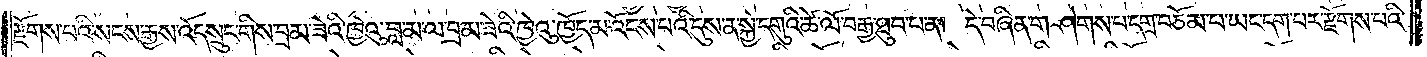རྫོགས་པའི་སངས་རྒྱས་འོད་སྲུང་གིས་བྲམ་ཟེའི་ཁྱེའུ་བླ་མ་ལ་བྲམ་ཟེའི་ཁྱེའུ་ཁྱོད་མ་འོངས་པའི་དུས་ན་སྐྱེ་དགུའི་ཚེ་ལོ་བརྒྱ་ཐུབ་པ་ན། དེ་བཞིན་གཤེགས་པ་དགྲ་བཅོམ་པ་ཡང་དག་པར་རྫོགས་པའི་
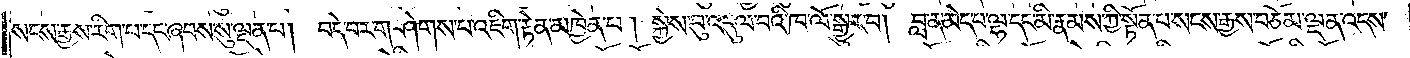སངས་རྒྱས་རིག་པ་དང་ཞབས་སུ་ལྡན་པ། བདེ་བར་གཤེགས་པ་འཇིག་རྟེན་མཁྱེན་པ། སྐྱེས་བུ་འདུལ་བའི་ཁ་ལོ་སྒྱུར་བ། བླ་ན་མེད་པ་ལྷ་དང་མི་རྣམས་ཀྱི་སྟོན་པ་སངས་རྒྱས་བཅོམ་ལྡན་འདས་
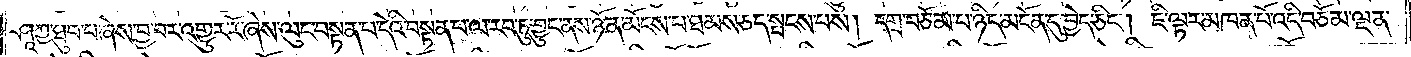ཤཱཀྱ་ཐུབ་པ་ཞེས་བྱ་བར་འགྱུར་རོ་ཞེས་ལུང་བསྟན་པ་དེའི་བསྟན་པ་ལ་རབ་ཏུ་བྱུང་ནས་ཉོན་མོངས་པ་ཐམས་ཅད་སྤངས་པས། དགྲ་བཅོམ་པ་ཉིད་མངོན་དུ་བྱེད་ཅིང༌། ཇི་ལྟར་མཁན་པོ་འདི་བཅོམ་ལྡན་
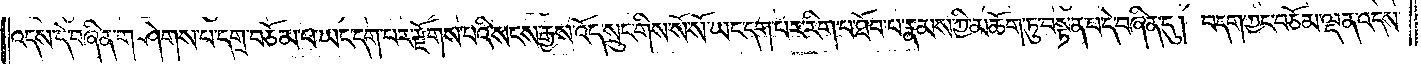འདས་དེ་བཞིན་གཤེགས་པ་དགྲ་བཅོམ་པ་ཡང་དག་པར་རྫོགས་པའི་སངས་རྒྱས་འོད་སྲུང་གིས་སོ་སོ་ཡང་དག་པར་རིག་པ་ཐོབ་པ་རྣམས་ཀྱི་མཆོག་ཏུ་བསྟན་པ་དེ་བཞིན་དུ། བདག་ཀྱང་བཅོམ་ལྡན་འདས་
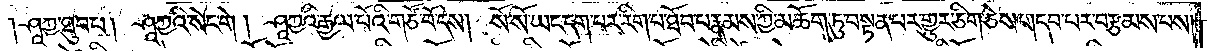།ཤཱཀྱ་ཐུབ་པ། ཤཱཀྱའི་སེང་གེ། ཤཱཀྱའི་རྒྱལ་པོའི་གཙོ་བོ་དེས། སོ་སོ་ཡང་དག་པར་རིག་པ་ཐོབ་པ་རྣམས་ཀྱི་མཆོག་ཏུ་བསྟན་པར་གྱུར་ཅིག་ཅེས་གདབ་པར་བརྩམས་པས།
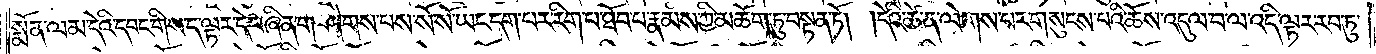སྨོན་ལམ་དེའི་དབང་གིས་ད་ལྟར་དེ་བཞིན་གཤེགས་པས་སོ་སོ་ཡང་དག་པར་རིག་པ་ཐོབ་པ་རྣམས་ཀྱི་མཆོག་ཏུ་བསྟན་ཏོ། །དེའི་ཚེ་ན་ལེགས་པར་གསུངས་པའི་ཆོས་འདུལ་བ་ལ་འདི་ལྟར་རབ་ཏུ་
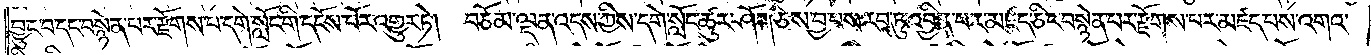བྱུང་བ་དང་བསྙེན་པར་རྫོགས་པ་དགེ་སློང་གི་དངོས་པོར་འགྱུར་ཏེ། བཅོམ་ལྡན་འདས་ཀྱིས་དགེ་སློང་ཚུར་ཤོག་ཅེས་བྱ་བས་རབ་ཏུ་འབྱིན་པར་མཛད་ཅིང་བསྙེན་པར་རྫོགས་པར་མཛད་པས་འགའ་
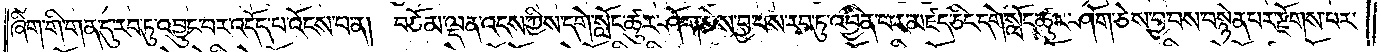ཞིག་གི་གན་དུ་རབ་ཏུ་འབྱུང་བར་འདོད་པ་འོངས་པ་ན། བཅོམ་ལྡན་འདས་ཀྱིས་དགེ་སློང་ཚུར་ཤོག་ཅེས་བྱ་བས་རབ་ཏུ་འབྱིན་པར་མཛད་ཅིང་དགེ་སློང་ཚུར་ཤོག་ཅེས་བྱ་བས་བསྙེན་པར་རྫོགས་པར་
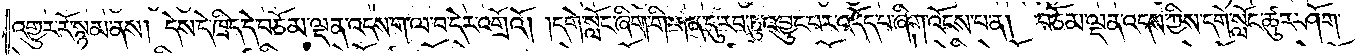འགྱུར་རོ་སྙམ་ནས། དེས་དེ་ཁྲིད་དེ་བཅོམ་ལྡན་འདས་ག་ལ་བ་དེར་འགྲོའོ། །དགེ་སློང་ཞིག་གི་གན་དུ་རབ་ཏུ་འབྱུང་བར་འདོད་པ་ཞིག་འོངས་པ་ན། བཅོམ་ལྡན་འདས་ཀྱིས་དགེ་སློང་ཚུར་ཤོག་
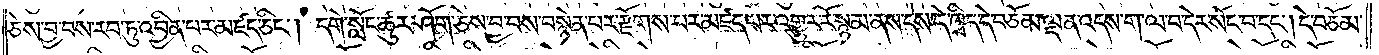ཅེས་བྱ་བས་རབ་ཏུ་འབྱིན་པར་མཛད་ཅིང༌། དགེ་སློང་ཚུར་ཤོག་ཅེས་བྱ་བས་བསྙེན་པར་རྫོགས་པར་མཛད་པར་འགྱུར་རོ་སྙམ་ནས་དེས་དེ་ཁྲིད་དེ་བཅོམ་ལྡན་འདས་ག་ལ་བ་དེར་སོང་བ་དང༌། དེ་བཅོམ་
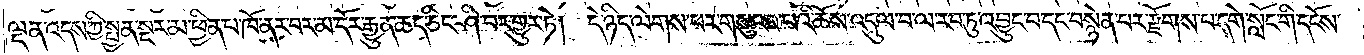ལྡན་འདས་ཀྱི་སྤྱན་སྔར་མ་ཕྱིན་པ་ཁོ་ནར་བར་མ་དོར་རྒྱུན་ཆད་ཅིང་ཤི་བར་གྱུར་ཏེ། དེ་ཉིད་ལེགས་པར་གསུངས་པའི་ཆོས་འདུལ་པ་ལ་རབ་ཏུ་འབྱུང་བ་དང་བསྙེན་པར་རྫོགས་པ་དགེ་སློང་གི་དངོས་
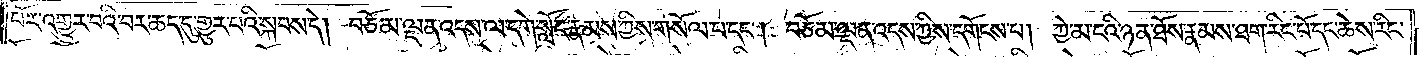པོར་འགྱུར་བའི་བར་ཆད་དུ་གྱུར་པའི་སྐབས་དེ། བཅོམ་ལྡན་འདས་ལ་དགེ་སློང་རྣམས་ཀྱིས་གསོལ་པ་དང༌། བཅོམ་ལྡན་འདས་ཀྱིས་དགོངས་པ། ཀྱེ་མ་ངའི་ཉན་ཐོས་རྣམས་ཐག་རིང་པོ་དང་ཆེས་རིང་
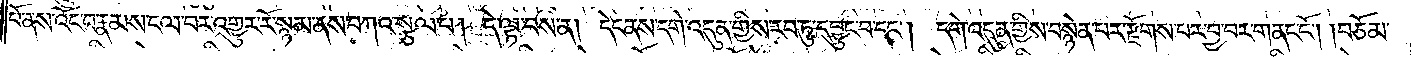པོ་ནས་འོང་བ་རྣམས་ངལ་བར་འགྱུར་རོ་སྙམ་ནས་བཀའ་སྩལ་པ། དེ་ལྟ་བས་ན། དེང་ནས་དགེ་འདུན་གྱིས་རབ་ཏུ་དབྱུང་བ་དང༌། དགེ་འདུན་གྱིས་བསྙེན་པར་རྫོགས་པར་བྱ་བར་གནང་ངོ༌། །བཅོམ་
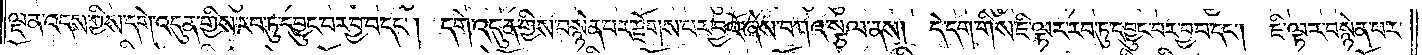ལྡན་འདས་ཀྱིས་དགེ་འདུན་གྱིས་རབ་ཏུ་དབྱུང་བར་བྱ་བ་དང༌། དགེ་འདུན་གྱིས་བསྙེན་པར་རྫོགས་པར་བྱའོ་ཞེས་བཀའ་སྩལ་ནས། དེ་དག་གིས་ཇི་ལྟར་རབ་ཏུ་དབྱུང་བར་བྱ་བ་དང༌། ཇི་ལྟར་བསྙེན་པར་
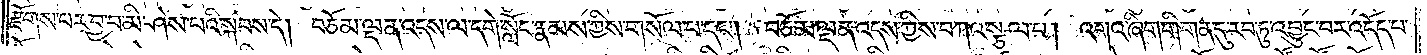རྫོགས་པར་བྱ་བ་མི་ཤེས་པའི་སྐབས་དེ། བཅོམ་ལྡན་འདས་ལ་དགེ་སློང་རྣམས་ཀྱིས་གསོལ་པ་དང༌། བཅོམ་ལྡན་འདས་ཀྱིས་བཀའ་སྩལ་པ། འགའ་ཞིག་གི་གན་དུ་རབ་ཏུ་འབྱུང་བར་འདོད་པ་
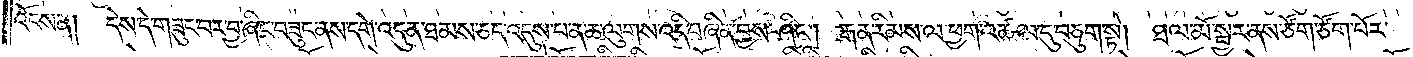འོངས་ན། དེས་དེ་གཟུང་བར་བྱ་ཞིང་བཟུང་ནས་དགེ་འདུན་ཐམས་ཅད་འདུས་པ་ན་ཆ་ལུགས་འདི་བཞིན་བྱས་ཤིང༌། རྒན་རིམས་ལ་ཕྱག་འཚལ་དུ་བཅུག་སྟེ། ཐལ་མོ་སྦྱར་ནས་ཙོག་ཙོག་པོར་
